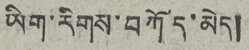ཡིག་རིགས་བཀོད་མེད།
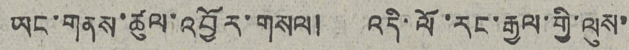ཡང་གནས་ཚུལ་འབྱོར་གསལ།  འདི་ལོ་རང་རྒྱལ་གྱི་ལུས་
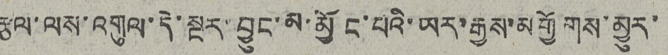རྩལ་ལས་འགུལ་དེ་སྔར་བྱུང་མ་མྱོང་པའི་ཡར་རྒྱས་མགྱོགས་མྱུར་
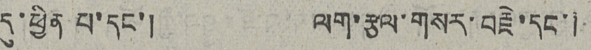དུ་ཕྱིན་པ་དང་། ལག་རྩལ་གསར་བརྗེ་དང་།
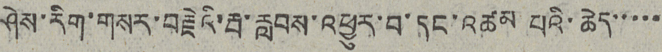ཤེས་རིག་གསར་བརྗེའི་རྦ་རླབས་འཕྱུར་བ་དང་འཚམ་པའི་ཆེད་་་་་
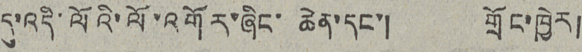དུ་འདི་ལོའི་ལོ་འགོར་ཞིང་ཆེན་དང་།   གྲོང་ཁྱེར།
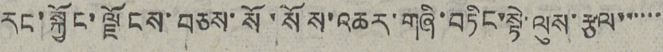རང་སྐྱོང་ལྗོངས་བཅས་སོ་སོས་འཆར་གཞི་བཏིང་སྟེ་ལུས་རྩལ་་་་་
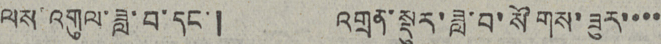ལས་འགུལ་ཟླ་བ་དང་།  འགྲན་སྡུར་ཟླ་བ་སོགས་ཟུར་་་་
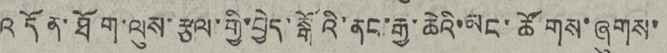འདོན་ཐོག་ལུས་རྩལ་གྱི་བྱེད་སྒོའི་ནང་རྒྱ་ཆེའི་མང་ཚོགས་ཞུགས་
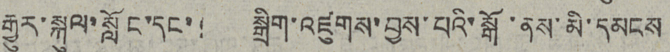རྒྱུར་སྐུལ་སློང་དང་། སྒྲིག་འཛུགས་བྱས་པའི་སྒོ་ནས་མི་དམངས
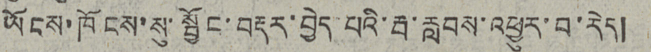ཡོངས་ཁོངས་སུ་སྦྱོང་བརྡར་བྱེད་པའི་རྦ་རླབས་འཕྱུར་བ་རེད།
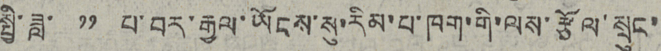སྤྱི་ཟླ་ ༡༡ པ་བར་རྒྱལ་ཡོངས་སུ་རིམ་པ་ཁག་གི་ལས་རྩོལ་སྲུང་
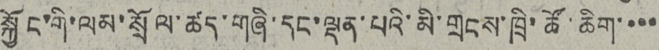སྐྱོང་གི་ལམ་སྲོལ་ཚད་གཞི་དང་ལྡན་པའི་མི་གྲངས་ཁྲི་ཚོ་ཆིག་་་་
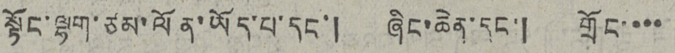སྟོང་ལྷག་ཙམ་ལོན་ཡོད་པ་དང་། ཞིང་ཆེན་དང་། གྲོང་་་་
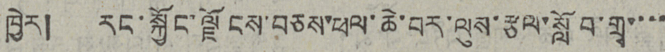ཁྱེར།  རང་སྐྱོང་ལྗོངས་བཅས་ཕལ་ཆེ་བར་ལུས་རྩལ་སློབ་གྲྭ་་་་
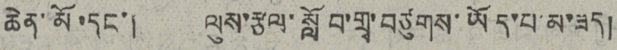ཆེན་མོ་དང་།  ལུས་རྩལ་སློབ་གྲྭ་བཙུགས་ཡོད་པ་མ་ཟད།
